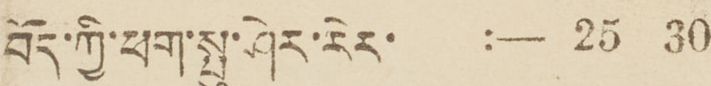བོད་ཀྱི་ཕག་སྤུ་ཤེར་རེར་ :—25 30
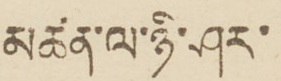མཚན་ལ་ཉི་ཤར་
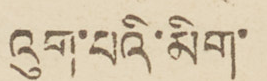འུག་པའི་མིག་
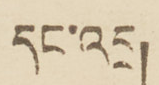དང་འདྲ།
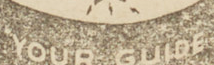YOUR GUIDE
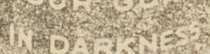IN DARKNESS
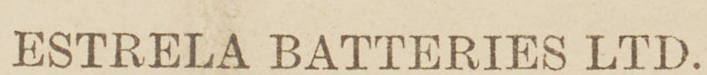ESTRELA BATTERIES LTD.
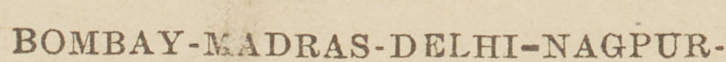BOMBAY-MADRAS-DELHI-NAGPUR-
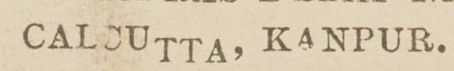CALCUTTA. KANPUR.
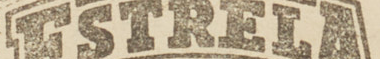ESTRELA
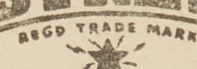REGD TRADE MARK
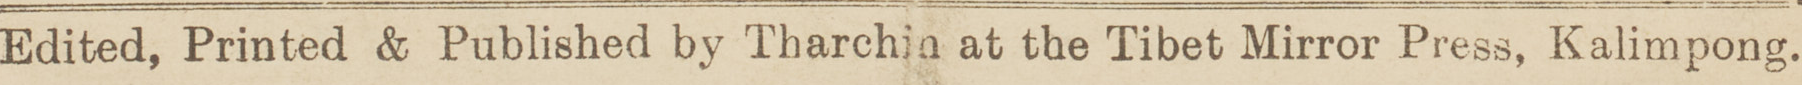Edited, Printed & published by Tharchin at the Tibet Mirrow Press, Kalimpong.
